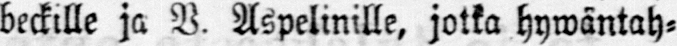beckllle ja V. Aspelinille, jotka hywäntah-
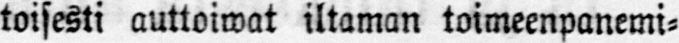toisesti auttoiwat iltaman toimeenpanemi-
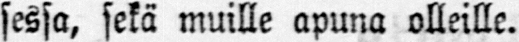sessa, sekä muille apuna olleille.
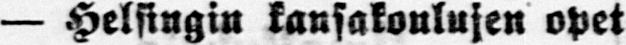— Helsingin kansakoulujen opet-
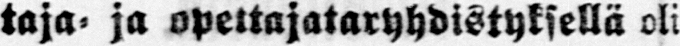taja- ja opettajataryhdistyksellä oli
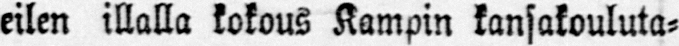eilen illalla kokous Kampin kansakouluta-
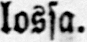lossa.
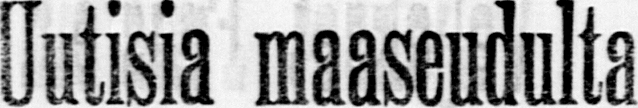Uutisia maaseudulta.
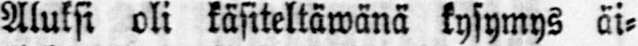Aluksi oli käsiteltäwänä kysymys äi-
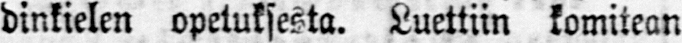dinkielen opetuksesta. Luettiin komitean
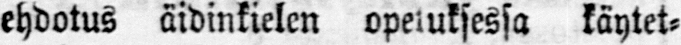ehdotus äidinkielen opetuksessa käytet-
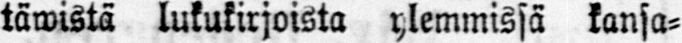täwistä lukukirjoista ylemmissä kansa-
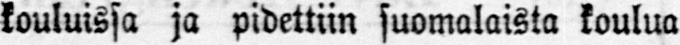kouluissa ja pidettiin suomalaista koulua
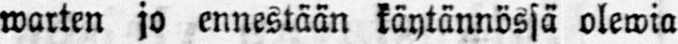warten jo ennestään käytännössä olewia
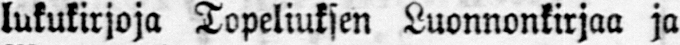lukukirjoja Topeliuksen Luonnonkirjaa ja
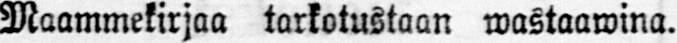Maammekirjaa karkotustaan wastaawina.
